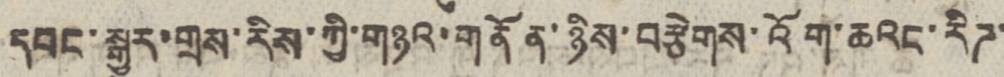དབང་སྒྱུར་གྲས་རིས་ཀྱི་གཉའ་གནོན་ཉིས་བརྩེགས་འོག་ཆའང་རིཊ་
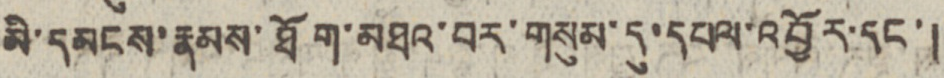མི་དམངས་རྣམས་ཐོག་མཐའ་བར་གསུམ་དུ་དཔལ་འབྱོར་དང་།
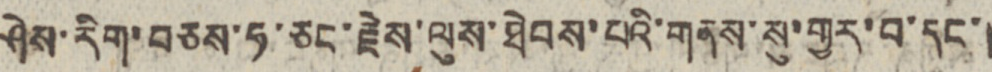ཤེས་རིག་བཅས་ཧ་ཅང་རྗེས་ལུས་ཐེབས་པའི་གནས་སུ་གྱར་བ་དང་།
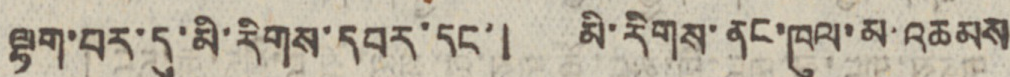ལྷག་པར་དུ་མི་རིགས་དབར་དང་། མི་རིགས་ནང་ཁུལ་མ་འཆམས
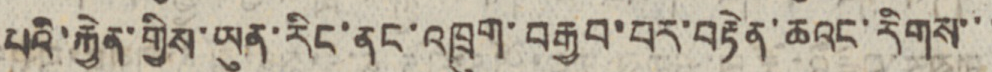པའི་རྐྱེན་གྱིས་ཡུན་རིང་ནང་འཁྲུག་བརྒྱབ་པར་བརྟེན་ཆའང་རིགས་་་
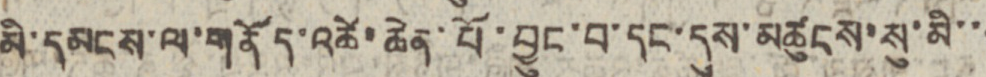མི་དམངས་ལ་གནོད་འཚེ་ཆེན་པོ་བྱུང་བ་དང་དུས་མཚུངས་སུ་མི་་་
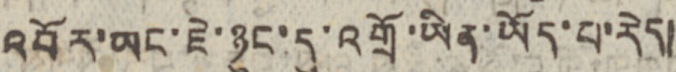འབོར་ཡང་ཇེ་ཉུང་དུ་འགྲོ་ཡིན་ཡོད་པ་རེད།
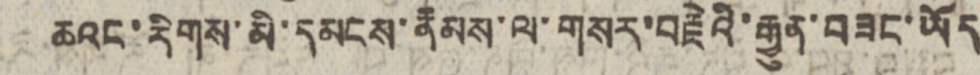ཆའང་རིགས་མི་དམངས་རྣམས་ལ་གསར་བརྗེའི་རྒྱུན་བཟང་ཡོད
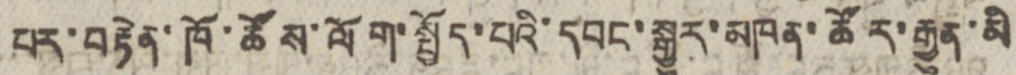པར་བརྟེན་ཁོ་ཚོས་ལོག་སྤྱོད་པའི་དབང་སྒྱུར་མཁན་ཚོར་རྒྱུན་མི
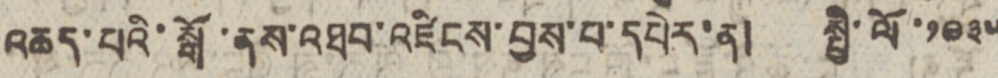འཆད་པའི་སྒོ་ནས་འཐབ་འཛིངས་བྱས་པ་དཔེར་ན། སྤྱི་ལོ་༡༩༣༥
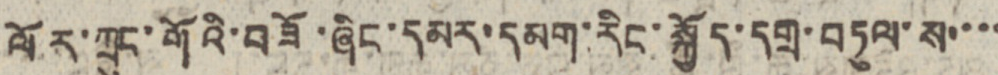ལོར་ཀྲུང་གོའི་བཟོ་ཞིང་དམར་དམག་རིང་སྐྱོད་དགྲ་བཏུལ་ས་་་་
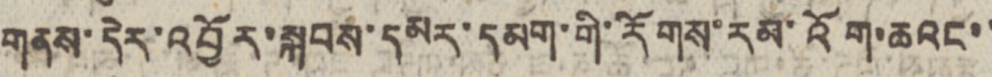གནས་དེར་འབྱོར་སྐབས་དམར་དམག་གི་རོགས་རམ་འོག་ཆའང་་
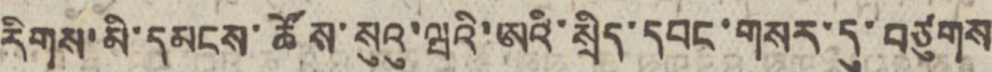རིགས་མི་དམངས་ཚོས་སུའུ་ཝའི་ཨའི་སྲིད་དབང་གསར་དུ་བཙུགས་
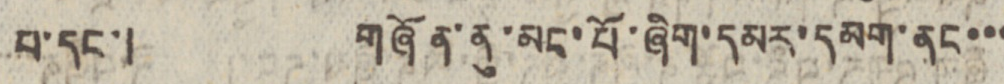པ་དང་། གཞོན་ནུ་མང་པོ་ཞིག་དམར་དམག་ནང་་་
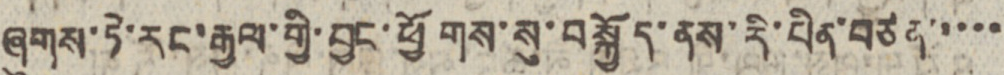ཞུགས་ཏེ་རང་རྒྱལ་གྱི་བྱང་ཕྱོགས་སུ་བསྐྱོད་ནས་རི་པིན་བཙན་་་་་
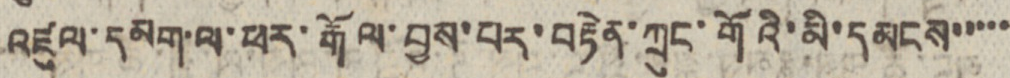འཛུལ་དམག་ལ་ཕར་རྒོལ་བྱས་པར་བརྟེན་ཀྲུང་གོའི་མི་དམངས་་་་་
